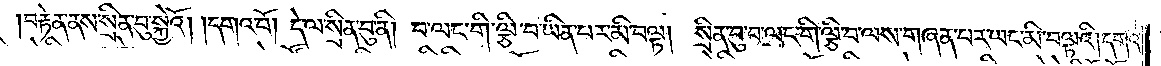བརྟེན་ནས་སྲིན་བུ་སྐྱེའོ། །དགའ་བོ། དེ་ལ་སྲིན་བུ་ནི། བ་ལང་གི་ལྕི་བ་ཡིན་པར་མི་བལྟ། སྲིན་བུ་བ་ལང་གི་ལྕི་བ་ལས་གཞན་པར་ཡང་མི་བལྟའི། དགའ་
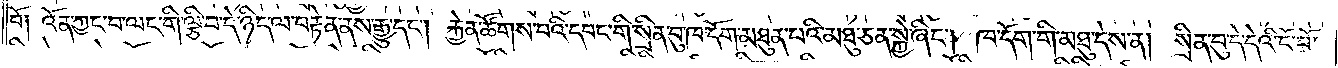བོ༑ འོན་ཀྱང་བ་ལང་གི་ལྕི་བ་དེ་ཉིད་ལ་བརྟེན་ནས་རྒྱུ་དང༌། རྐྱེན་ཚོགས་པའི་དབང་གི་སྲིན་བུ་ཁ་དོག་མཐུན་པའི་མཐུ་ཅན་སྐྱེ་ཞིང༌། ཁ་དོག་གི་མཐུ་དེས་ན། སྲིན་བུ་དེ་དེའི་ངོ་བོ་
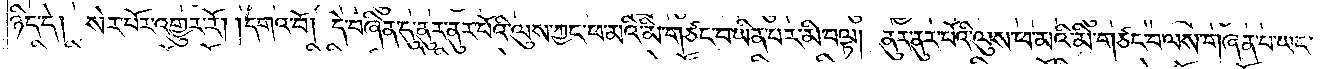ཉིད་དེ། སེར་པོར་འགྱུར་རོ། །དགའ་བོ། དེ་བཞིན་དུ་ནུར་ནུར་པོའི་ལུས་ཀྱང་ཕ་མའི་མི་གཙང་བ་ཡིན་པར་མི་བལྟ། ནུར་ནུར་པོའི་ལུས་ཕ་མའི་མི་གཙང་བ་ལས་གཞན་པ་ཡང་
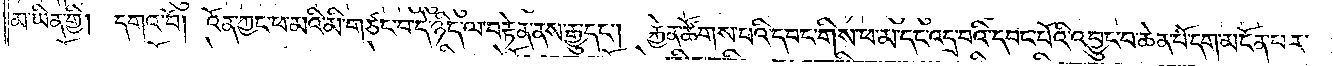མ་ཡིན་གྱི། དགའ་བོ། འོན་ཀྱང་ཕ་མའི་མི་གཙང་བ་དེ་ཉིད་ལ་བརྟེན་ནས་རྒྱུ་དང༌། རྐྱེན་ཚོགས་པའི་དབང་གིས་ཕ་མ་དང་འདྲ་བའི་དབང་པོའི་འབྱུང་བ་ཆེན་པོ་དག་མངོན་པར་
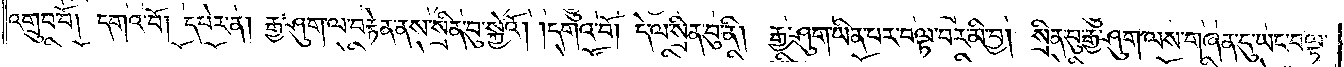འགྲུབ་བོ། དགའ་བོ། དཔེར་ན། རྒྱ་ཤུག་ལ་བརྟེན་ནས་སྲིན་བུ་སྐྱེའོ། །དགའ་བོ། དེ་ལ་སྲིན་བུ་ནི། རྒྱ་ཤུག་ཡིན་པར་བལྟ་བར་མི་བྱ། སྲིན་བུ་རྒྱ་ཤུག་ལས་གཞན་དུ་ཡང་བལྟ་
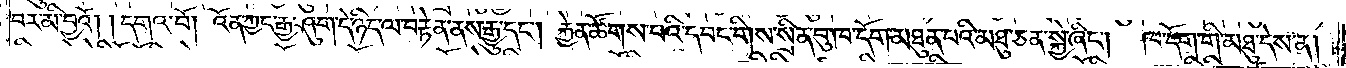བར་མི་བྱའོ། །དགའ་བོ། འོན་ཀྱང་རྒྱ་ཤུག་དེ་ཉིད་ལ་བརྟེན་ནས་རྒྱུ་དང༌། རྐྱེན་ཚོགས་པའི་དབང་གིས་སྲིན་བུ་ཁ་དོག་མཐུན་པའི་མཐུ་ཅན་སྐྱེ་ཞིང༌། ཁ་དོག་གི་མཐུ་དེས་ན།
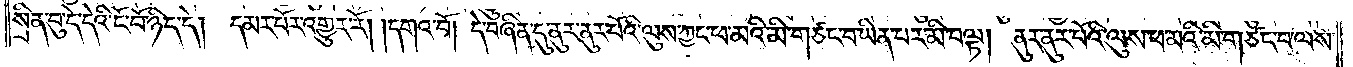སྲིན་བུ་དེ་དེའི་ངོ་བོ་ཉིད་དེ། དམར་པོར་འགྱུར་རོ། །དགའ་བོ། དེ་བཞིན་དུ་ནུར་ནུར་པོའི་ལུས་ཀྱང་ཕ་མའི་མི་གཙང་བ་ཡིན་པར་མི་བལྟ། ནུར་ནུར་པོའི་ལུས་ཕ་མའི་མི་གཙང་བ་ལས་
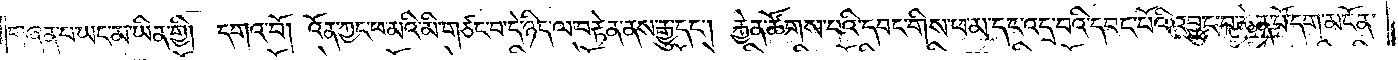གཞན་པ་ཡང་མ་ཡིན་གྱི། དགའ་པོ། འོན་ཀྱང་ཕ་མའི་མི་གཙང་བ་དེ་ཉིད་ལ་བརྟེན་ནས་རྒྱུ་དང༌། རྐྱེན་ཚོགས་པའི་དབང་གིས་ཕ་མ་དང་འདྲ་བའི་དབང་པོའི་འབྱུང་བ་ཆེན་པོ་དག་མངོན་
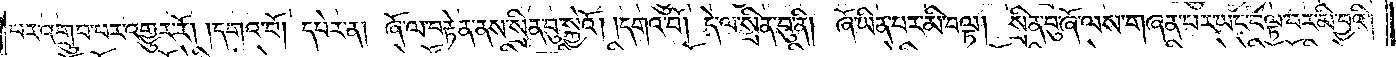པར་འགྲུབ་པར་འགྱུར་རོ། །དགའ་བོ། དཔེར་ན། ཞོ་ལ་བརྟེན་ནས་སྲིན་བུ་སྐྱེའོ། །དགའ་བོ། དེ་ལ་སྲིན་བུ་ནི། ཞོ་ཡིན་པར་མི་བལྟ། སྲིན་བུ་ཞོ་ལས་གཞན་པར་ཡང་བལྟ་བར་མི་བྱའི།
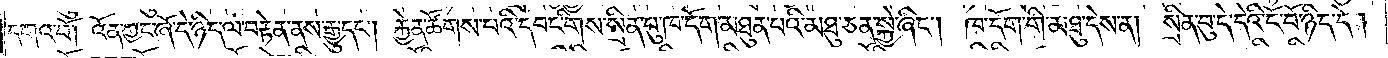དགའ་བོ། འོན་ཀྱང་ཞོ་དེ་ཉིད་ལ་བརྟེན་ནས་རྒྱུ་དང༌། རྐྱེན་ཚོགས་པའི་དབང་གིས་སྲིན་བུ་ཁ་དོག་མཐུན་པའི་མཐུ་ཅན་སྐྱེ་ཞིང༌། ཁ་དོག་གི་མཐུ་དེས་ན། སྲིན་བུ་དེ་དེའི་ངོ་བོ་ཉིད་དེ།
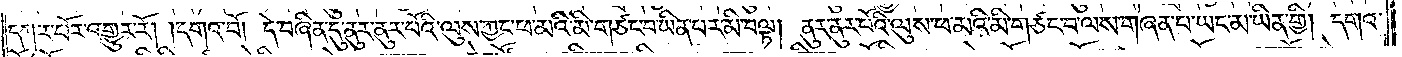དཀར་པོར་འགྱུར་རོ། །དགའ་བོ། དེ་བཞིན་དུ་ནུར་ནུར་པོའི་ལུས་ཀྱང་ཕ་མའི་མི་གཙང་བ་ཡིན་པར་མི་བལྟ། ནུར་ནུར་པོའི་ལུས་ཕ་མའི་མི་གཙང་པ་ལས་གཞན་པ་ཡང་མ་ཡིན་གྱི། དགའ་
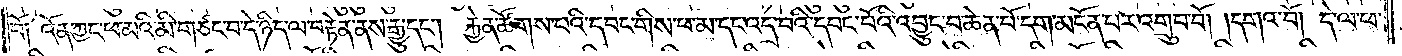བོ༑ འོན་ཀྱང་ཕ་མའི་མི་གཙང་པ་དེ་ཉིད་ལ་བརྟེན་ནས་རྒྱུ་དང༌། རྐྱེན་ཚོགས་པའི་དབང་གིས་ཕ་མ་དང་འདྲ་བའི་དབང་པོའི་འབྱུང་བ་ཆེན་པོ་དག་མངོན་པར་འགྲུབ་བོ། །དགའ་བོ། དེ་ལ་ཕ་
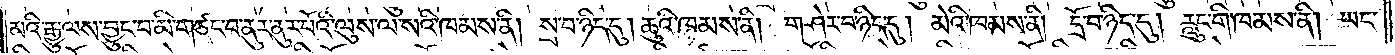མའི་རྒྱུ་ལས་བྱུང་བ་མི་གཙང་བ་ནུར་ནུར་པོའི་ལུས་ལ་སའི་ཁམས་ནི། སྲ་བ་ཉིད་དུ། ཆུའི་ཁམས་ནི། གཤེར་བ་ཉིད་དུ། མེའི་ཁམས་ནི། དྲོ་བ་ཉིད་དུ། རླུང་གི་ཁམས་ནི། ཡང་
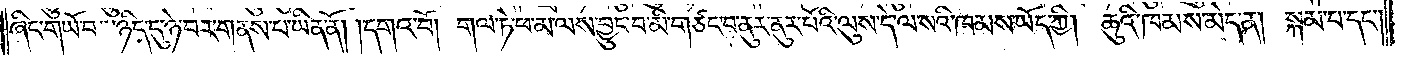ཞིང་གཡོ་བ་ཉིད་དུ་ཉེ་བར་གནས་པ་ཡིན་ནོ། །དགའ་བོ། གལ་ཏེ་ཕ་མ་ལས་བྱུང་བ་མི་གཙང་བ་ནུར་ནུར་པོའི་ལུས་དེ་ལ་སའི་ཁམས་ཡོད་ཀྱི། ཆུའི་ཁམས་མེད་ན། སྐམ་པ་དང་
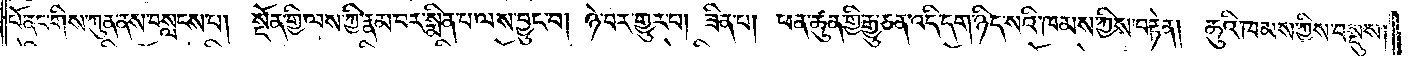པོ་ནང་གིས་ཀུན་ནས་བསླངས་པ། སྔོན་གྱི་ལས་ཀྱི་རྣམ་པར་སྨིན་པ་ལས་བྱུང་བ། ཉེ་བར་གྱུར་པ། ཟིན་པ། ཕན་ཚུན་གྱི་རྒྱུ་ཅན་འདི་དག་ཉིད་སའི་ཁམས་ཀྱིས་བརྟེན། ཆུའི་ཁམས་ཀྱིས་བསྡུས།
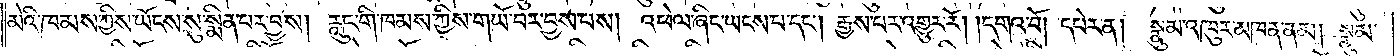མེའི་ཁམས་ཀྱིས་ཡོངས་སུ་སྨིན་པར་བྱས། རླུང་གི་ཁམས་ཀྱིས་གཡོ་བར་བྱས་པས། འཕེལ་ཞིང་ཡངས་པ་དང༌། རྒྱས་པར་འགྱུར་རོ། །དགའ་བོ། དཔེར་ན། སྣུམ་འཁུར་མཁན་ནམ། སྣུམ་
